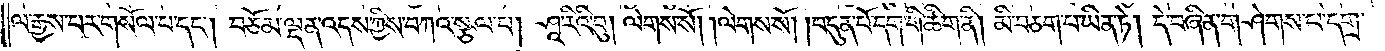ལ་རྒྱས་པར་གསོལ་པ་དང༌། བཅོམ་ལྡན་འདས་ཀྱིས་བཀའ་སྩལ་པ། ཤཱ་རིའི་བུ། ལེགས་སོ། །ལེགས་སོ། །བདུན་པོ་དག་གི་ཚིག་ནི། མི་བཅག་པ་ཡིན་ཏེ། དེ་བཞིན་གཤེགས་པ་དགྲ་
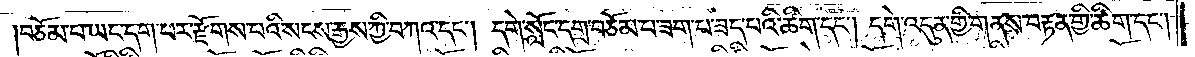བཅོམ་པ་ཡང་དག་པར་རྫོགས་པའི་སངས་རྒྱས་ཀྱི་བཀའ་དང༌། དགེ་སློང་དགྲ་བཅོམ་པ་ཟག་པ་ཟད་པའི་ཚིག་དང༌། དགེ་འདུན་གྱི་གནས་བརྟན་གྱི་ཚིག་དང༌།
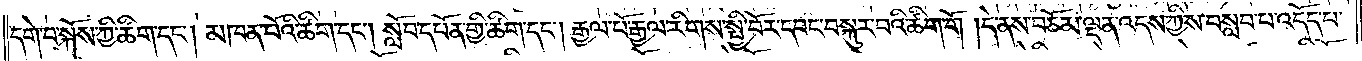དགེ་བ་སྐོས་ཀྱི་ཚིག་དང༌། མཁན་པོའི་ཚིག་དང༌། སློབ་དཔོན་གྱི་ཚིག་དང༌། རྒྱལ་པོ་རྒྱལ་རིགས་སྤྱི་བོར་དབང་བསྐུར་བའི་ཚིག་གོ །དེ་ནས་བཅོམ་ལྡན་འདས་ཀྱིས་བསླབ་པ་འདོད་པ་
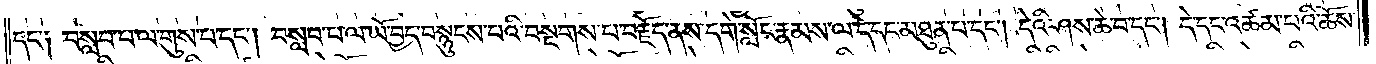དང་༑ བསླབ་པ་ལ་གུས་པ་དང༌། བསླབ་པ་ལ་ཡོ་བྱད་བསྙུངས་པའི་བསྔགས་པ་བརྗོད་ནས་དགེ་སློང་རྣམས་ལ་དེ་དང་མཐུན་པ་དང༌། དེའི་ཤས་ཆེ་བ་དང༌། དེ་དང་འཚམ་པའི་ཆོས་
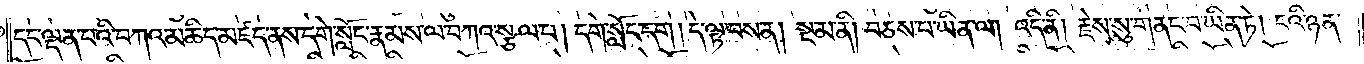དང་ལྡན་པའི་བཀའ་མཆིད་མཛད་ནས་དགེ་སློང་རྣམས་ལ་བཀའ་སྩལ་པ། དགེ་སློང་དག །དེ་ལྟ་བས་ན། སྔ་མ་ནི། བཅས་པ་ཡིན་ལ། འདི་ནི། རྗེས་སུ་གནང་བ་ཡིན་ཏེ། ངའི་ཉན་
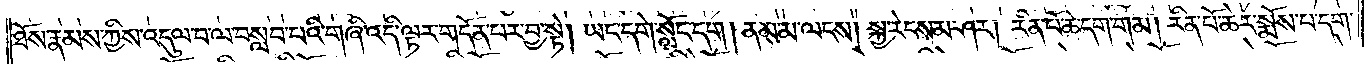ཐོས་རྣམས་ཀྱིས་འདུལ་བ་ལ་བསླབ་པའི་གཞི་འདི་ལྟར་གདོན་པར་བྱ་སྟེ། ཡང་དགེ་སློང་དག། ནམ་མ་ལངས། སྐྱ་རེངས་མ་ཤར། རིན་པོ་ཆེ་དག་གམ། རིན་པོ་ཆེར་སྨོས་པ་དག་
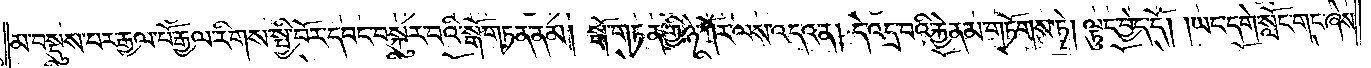མ་བསྡུས་པར་རྒྱལ་པོ་རྒྱལ་རིགས་སྤྱི་བོར་དབང་བསྐུར་བའི་སྒོ་གཏན་ནམ། སྒོ་གཏན་གྱི་ཉེ་ཀོར་ལས་འདའ་ན། དེ་འདྲ་བའི་རྐྱེན་མ་གཏོགས་ཏེ། ལྟུང་བྱེད་དོ། །ཡང་དགེ་སློང་གང་ཞེས་
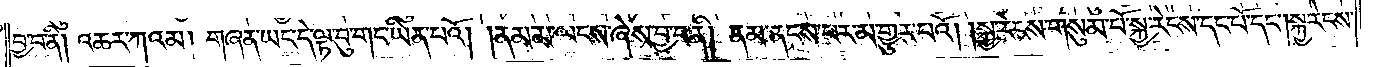བྱ་བ་ནི། འཆར་ཀའམ། གཞན་ཡང་དེ་ལྟ་བུ་གང་ཡིན་པའོ། །ནམ་མ་ལངས་ཞེས་བྱ་བ་ནི། ནམ་ནངས་པར་མ་གྱུར་པའོ། །སྐྱ་རེངས་གསུམ་པོ་སྐྱ་རེངས་དང་པོ་དང༌། སྐྱ་རེངས་
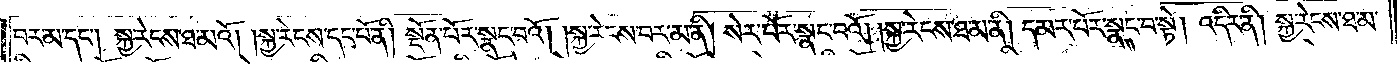བར་མ་དང༌། སྐྱ་རེངས་ཐ་མའོ། །སྐྱ་རེངས་དང་པོ་ནི། སྔོན་པོར་སྣང་བའོ། །སྐྱ་རེངས་བར་མ་ནི། སེར་པོར་སྣང་བའོ། །སྐྱ་རེངས་ཐ་མ་ནི། དམར་པོར་སྣང་བ་སྟེ། འདིར་ནི། སྐྱ་རེངས་ཐ་མ་
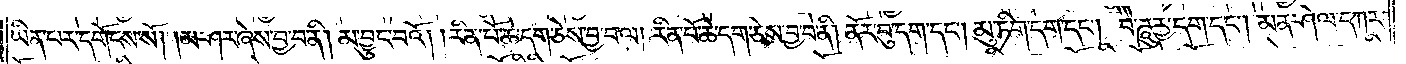ཡིན་པར་དགོངས་སོ། །མ་ཤར་ཞེས་བྱ་བ་ནི། མ་བྱུང་བའོ། །རིན་པོ་ཆེ་དག་ཅེས་བྱ་བ་ལ། རིན་པོ་ཆེ་དག་ཅེས་བྱ་བ་ནི། ནོར་བུ་དག་དང༌། མུ་ཏིག་དག་དང༌། བཻ་ཌཱུཪྻ་དག་དང༌། མན་ཤེལ་དཀར་
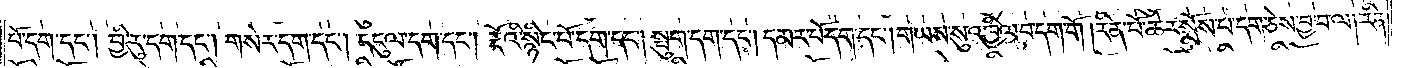པོ་དག་དང༌། བྱི་རུ་དག་དང༌། གསེར་དག་དང༌། དངུལ་དག་དང༌། རྡོའི་སྙིང་པོ་དག་དང༌། སྤུག་དག་དང༌། དམར་པོ་དག་དང༌། གཡས་སུ་འཁྱིལ་བདག་གོ །རིན་པོ་ཆེར་སྨོས་པ་དག་ཅེས་བྱ་བ་ལ། རིན་
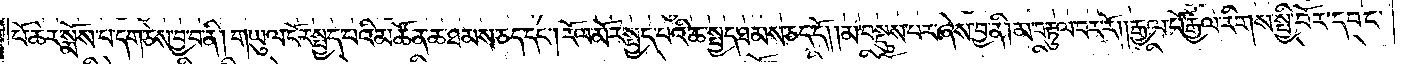པོ་ཆེར་སྨོས་པ་དག་ཅེས་བྱ་བ་ནི། གཡུལ་ངོར་སྤྱད་པའི་མཚོན་ཆ་ཐམས་ཅད་དང༌། རོལ་མོར་སྤྱད་པའི་ཆ་སྤྱད་ཐམས་ཅད་དོ། །མ་བསྡུས་པར་ཞེས་བྱ་ནི། མ་བརྟུལ་བར་རོ། །རྒྱལ་པོ་རྒྱལ་རིགས་སྤྱི་བོར་དབང་
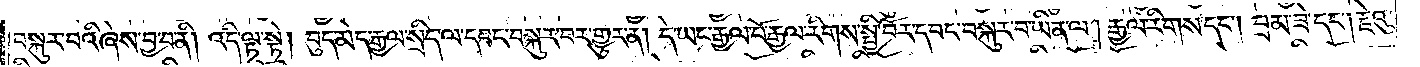བསྐུར་བའི་ཞེས་བྱ་བ་ནི། འདི་ལྟ་སྟེ། བུད་མེད་རྒྱལ་སྲིད་ལ་དབང་བསྐུར་བར་གྱུར་ན། དེ་ཡང་རྒྱལ་པོ་རྒྱལ་རིགས་སྤྱི་བོར་དབང་བསྐུར་བ་ཡིན་ལ། རྒྱལ་རིགས་དང༌། བྲམ་ཟེ་དང༌། རྗེའུ་
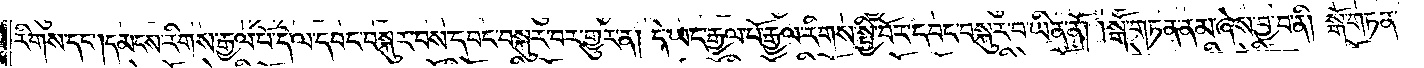རིགས་དང༌།དམངས་རིགས་རྒྱལ་པོ་དེ་ལ་དབང་བསྐུར་བས་དབང་བསྐུར་བར་གྱུར་ན། དེ་ཡང་རྒྱལ་པོ་རྒྱལ་རིགས་སྤྱི་བོར་དབང་བསྐུར་བ་ཡིན་ནོ། །སྒོ་གཏན་ནམ་ཞེས་བྱ་བ་ནི། སྒོ་གཏན་
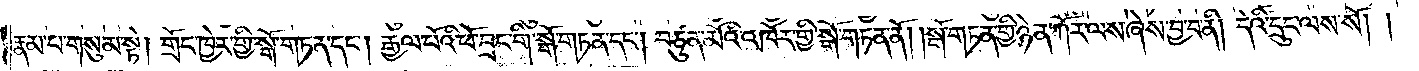རྣམ་པ་གསུམ་སྟེ། གྲོང་ཁྱེར་གྱི་སྒོ་གཏན་དང༌། རྒྱལ་པོའི་ཕོ་བྲང་གི་སྒོ་གཏན་དང༌། བཙུན་མོའི་འཁོར་གྱི་སྒོ་གཏན་ནོ། །སྒོ་གཏན་གྱི་ཉེན་ཀོར་ལས་ཞེས་བྱ་བ་ནི། དེའི་དྲུང་ལས་སོ། །
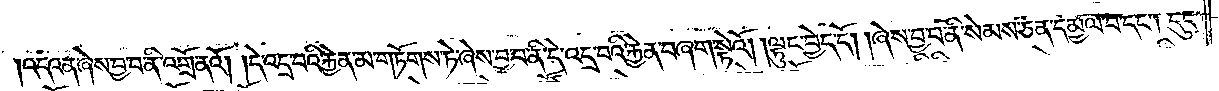འདའ་ན་ཞེས་བྱ་བ་ནི་འགྲོ་ནའོ། །དེ་འདྲ་བའི་རྐྱེན་མ་གཏོགས་ཏེ་ཞེས་བྱ་བ་ནི་དེ་འདྲ་བའི་རྐྱེན་བཞག་སྟེའོ། །ལྟུང་བྱེད་དོ། །ཞེས་བྱ་བ་ནི་སེམས་ཅན་དམྱལ་བ་དང༌། དུད་
